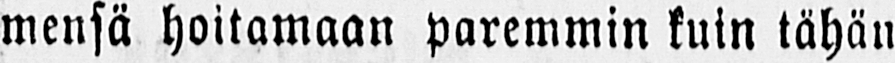mensä hoitamaan paremmin kuin tähän
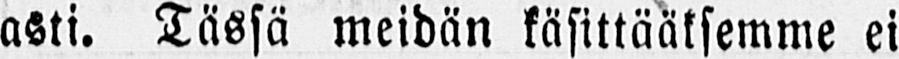asti. Tässä meidän käsittääksemme ei
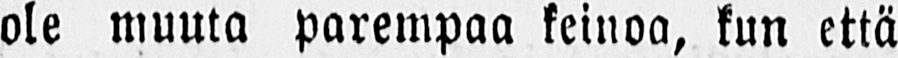ole muuta parempaa keinoa, kun että
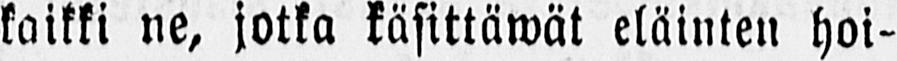kaikki ne, jotka käsittäwät eläinten hoi-
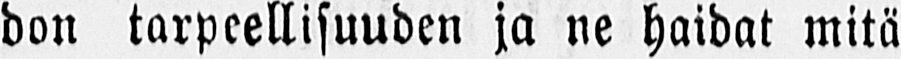don tarpeellisuuden ja ne haidat mitä
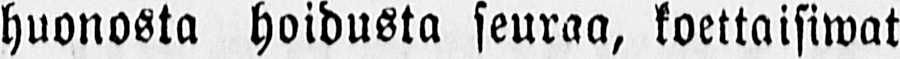huonosta hoidusta seuraa, koettaisiwat
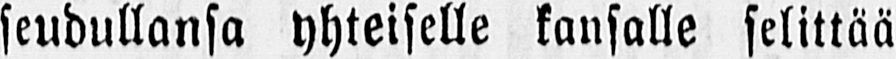seudullansa yhteiselle kansalle selittää
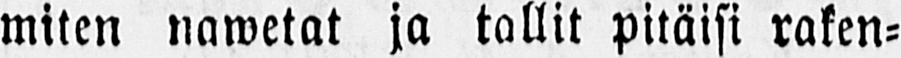miten nawetat ja tallit pitäisi raken-
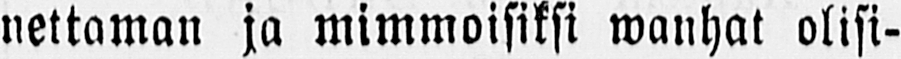nettaman ja mimmoisiksi wanhat olisi-
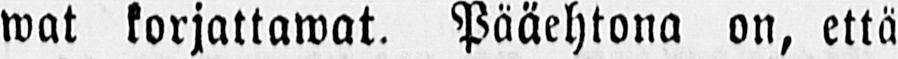wat korjattawat. Pääehtona on, että
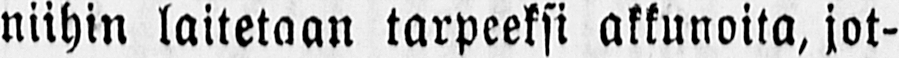niihin laitetaan tarpeeksi akkunoita, jot-
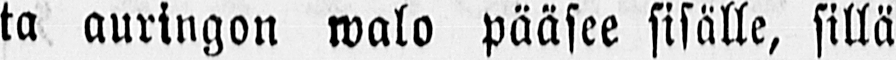ta auringon walo pääsee sisälle, sillä
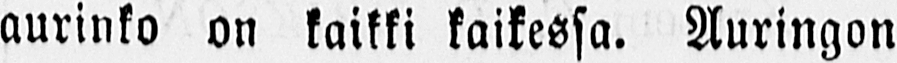aurinko on kaikki kaikessa. Auringon
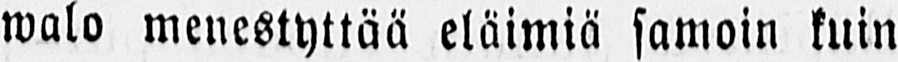walo menestyttää eläimiä samoin kuin
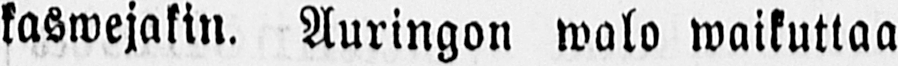kaswejakin. Auringon walo waikuttaa
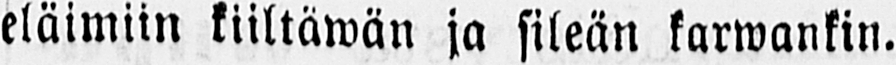eläimiin kiiltäwän ja sileän karwankin.
